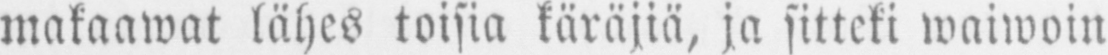makaawat lähes toisia käräjiä, ja sitteki waiwoin
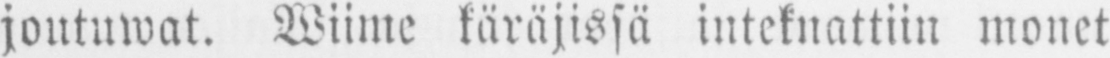joutuwat. Wiime käräjissä inteknattiin monet
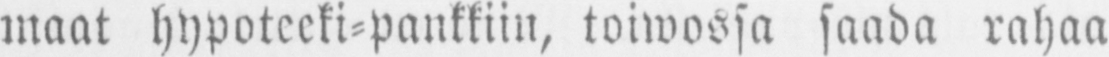maat hypoteeki-pankkiin, toiwossa saada rahaa
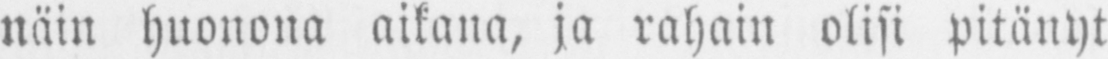näin huonona aikana, ja rahain olisi pitänyt
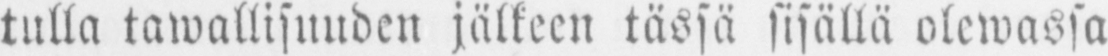tulla tawallisuuden jälkeen tässä sisällä olewassa
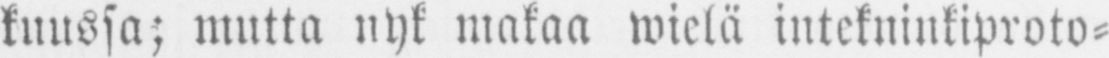kuussa; mutta nyk makaa wielä intekninkiproto-
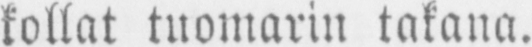kollat tuomarin takana.
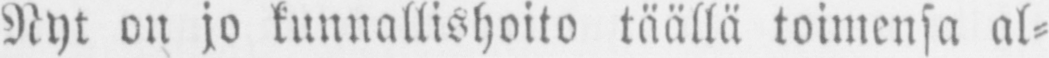Nyt on jo kunnallishoito täällä toimensa al-
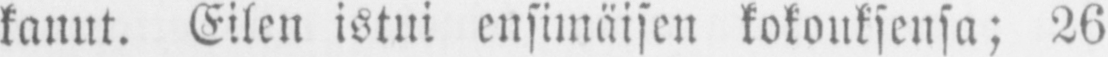kanut. Eilen istui ensimäisen kokouksensa; 26
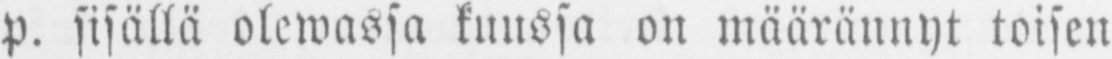p. sisällä olewassa kuussa on määrännyt toisen
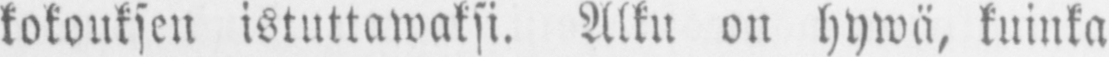kokouksen istuttawaksi. Alku on hywä, kuinka
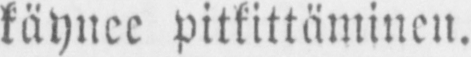käynee pitkittäminen.
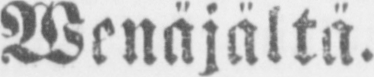Wenäjältä.
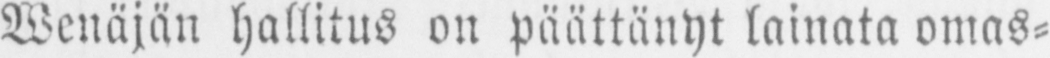Wenäjän hallitus on päättänyt lainata omas-
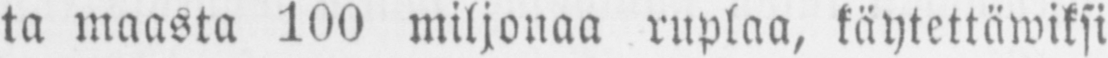ta maasta 100 miljonaa ruplaa, käytettäwiksi
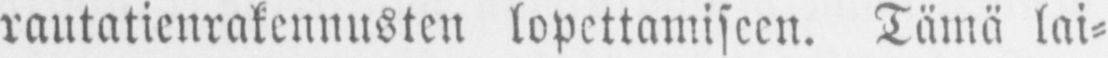rautatienrakennusten lopettamiseen. Tämä lai-
